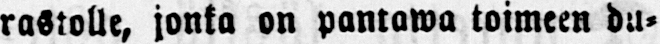rastolle, jonka on pantawa toimeen du-
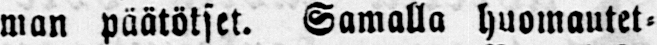man päätökset. Samalla huomautet-
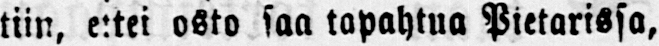tiin, ettei osto saa tapahtua Pietarissa,
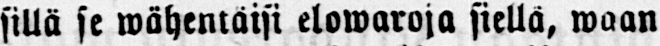sillä se wähentäisi elowaroja siellä, waan
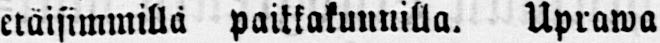etäisimmillä paikkakunnilla. Uprawa
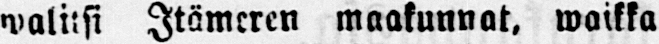walitsi Itämeren maakunnat, waikka
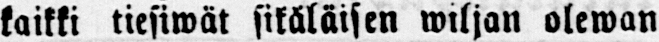kaikki tiesiwät sikäläisen wiljan olewan
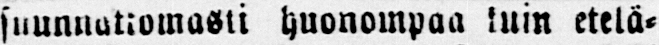suunnatiomasti huonompaa kuin etelä-
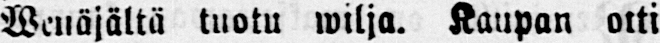Wenäjältä tuotu wilja. Kaupan otti
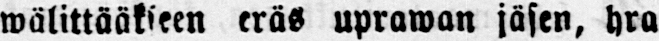wälittääkseen eräs uprawan jäsen, hra
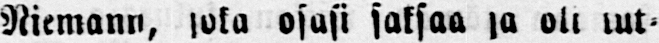Niemann, joka osasi saksaa ja oli tut-
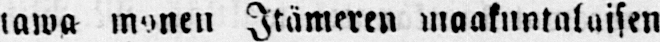tawa monen Itämeren maakuntalaisen
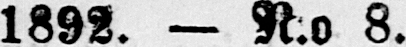1892. — N:o 8.
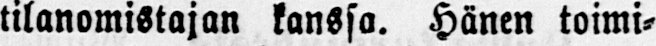tilanomistajan kanssa. Hänen toimi-
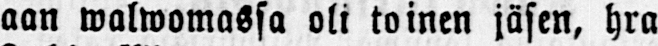aan walwomassa oli toinen jäsen, hra
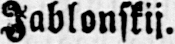Jablonskij.
